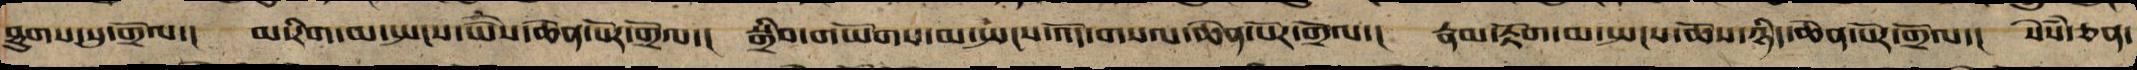ཐུགས་སུ་གྲོལ་། མ་རིག་མ་སྤངས་ཡེ་ཤེས་ཆེན་པོར་གྲོལ་། སྒྲིབ་གཡོགས་མ་སྤངས་འོད་གསལ་ཆེན་པོར་གྲོལ་། རྣམ་རྟོག་མ་སྤངས་ཆོས་ཉིད་ཆེན་པོར་གྲོལ་། སེཾས་ཅན་
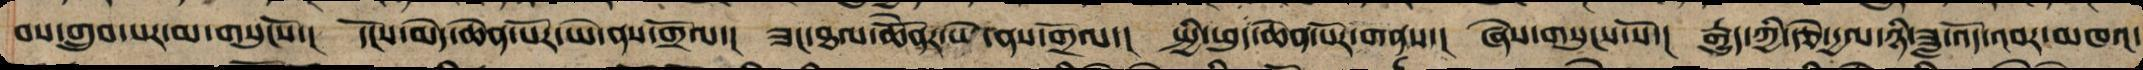བས་འགྲུབ་པར་མ་གསུངས་སོ་། དངོས་མེད་ཆེན་པོར་ཡེ་ནས་གྲོལ་། ཟང་ཐལ་ཆེནོར་ཡེ་ནས་གྲོལ་། སྤྱི་ཕུད་ཆེན་པོར་གནས་། ཞེས་གསུངས་སོ་། རྒྱུད་ཀྱི་རྩེ་རྒྱལ་ཉི་ཟླ་འོད་འབར་མཁའ་
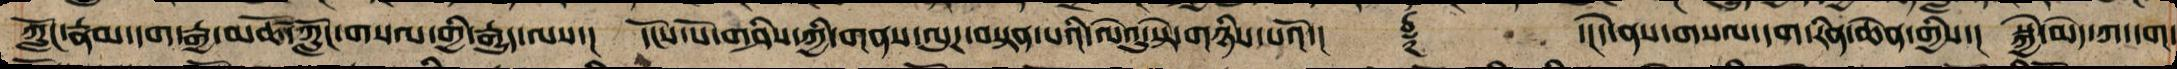ཀློང་རྣམ་དག་རྒྱ་མཚོ་ཀློང་གསལ་གྱི་རྒྱུད་ལས་། དངོས་པོ་གཤིས་ཀྱི་གནས་ལུཌ་བསྟན་པའི་ལེའུ་སྟེ་གཉིས་པའོ་།། ༈ ་།།དེ་ནས་གསལ་དག་རིན་ཆེན་གྱིས་། སྐྱེ་མེད་ཀ་དག་
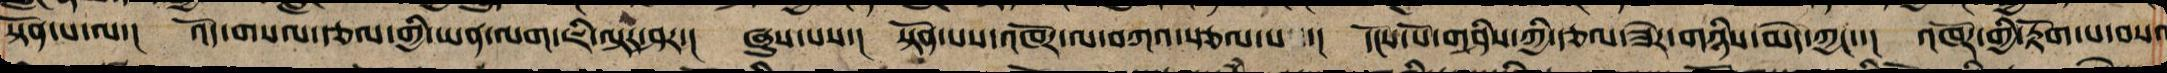སྟོན་པ་ལ་། འོད་གསལ་རྩལ་གྱི་ཡན་ལག་ཇི་ལྟར་ཤར་། ཞུས་པས་། སྟོན་པས་འཁོར་ལ་བཀའ་སྩལ་པ་། དངོས་པོ་གཤིས་ཀྱི་རྩལ་ཟེར་གཉིས་མེད་ཀྱང་་། འཁོར་གྱི་རྟོག་པ་བསལ་
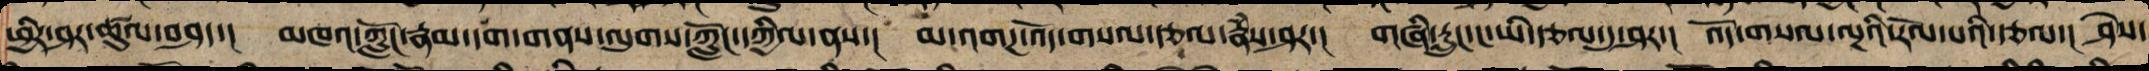ཕྱིར་ཤར་ཚུལ་བཤད་། མཁའ་ཀློང་རྣམ་དག་གནས་ལུགས་ཀློང་དཀྱིལ་ནས་། མ་འགཌ་འོད་གསལ་རྩལ་རྣཾས་ཤར་། གཞི་རླུང་ང་ཡི་རྩལ་དུ་ཤར་། འོད་གསལ་ལྔའི་རོལ་པའི་རྩལ་། ཤེས་
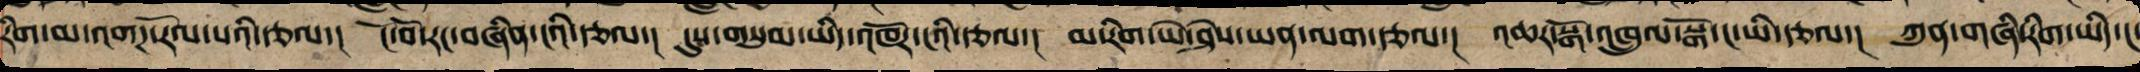རིག་མ་འགཌ་རོལ་པའི་རྩལ་། ངོ་བོ་རང་བཞིན་ང་ཡི་རྩལ་། དུས་གསུམ་ཡིད་འཁོར་ངའི་རྩལ་། མ་རིག་ཡེ་ཤེས་ཡན་ལག་རྩལ་། འཆར་སྒོ་འཁྲུལ་སྒོ་ང་ཡི་རྩལ་། ཀུན་གཞི་རིག་ཡིད་ང་
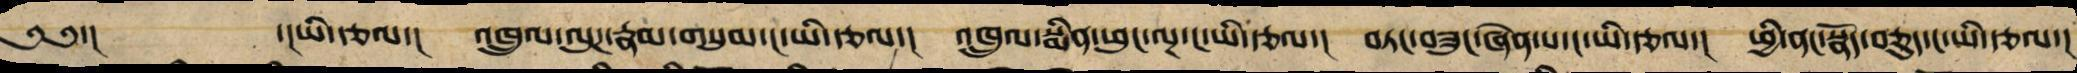༄༅་། ་།ཡི་རྩལ་། འཁྲུལ་ལུཌ་རྣམ་གསུམ་ང་ཡི་རྩལ་། འཁྲུལ་སྨིན་ཕུང་ལྔ་ང་ཡི་རྩལ་། བཏང་བཟུང་ཞེན་པ་ང་ཡི་རྩལ་། ཕྱི་ནང་སྣོད་བཅུད་ང་ཡི་རྩལ་།
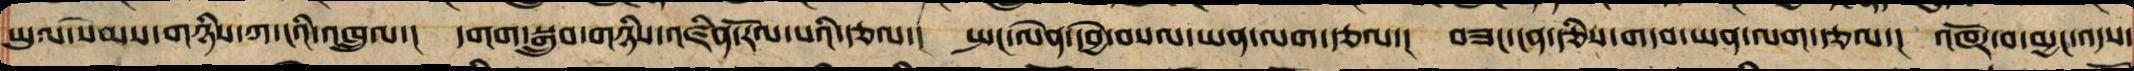ཡུལ་སེམས་གཉིས་ཀ་ངའི་འཁྲུལ་། དགག་བསྒྲུབ་གཉིས་འཛིན་རོལ་པའི་རྩལ་། སྤང་ལེན་དབྱེ་བསལ་ཡན་ལག་རྩལ་། བཟང་ངན་རྩིས་གདབ་ཡན་ལག་རྩལ་། འཁོར་བ་མྱང་འདས་
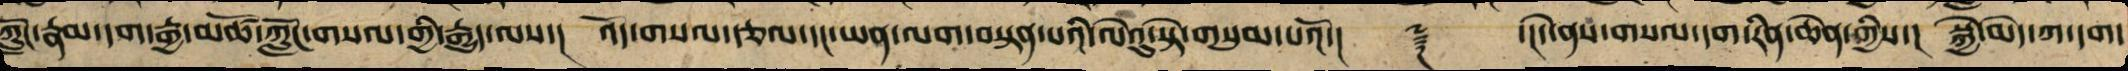ཀློང་རྣམ་དག་རྒྱ་མཚོ་ཀློང་གསལ་གྱི་རྒྱུད་ལས་། འོད་གསལ་རྩལ་དང་ཡན་ལག་བསྟན་པའི་ལེའུ་སྟེ་གསུམ་པའོ་།། ༈ ་།།དེ་ནས་གསལ་དག་རིན་ཆེན་གྱིས་། སྐྱེ་མེད་ཀ་དག་
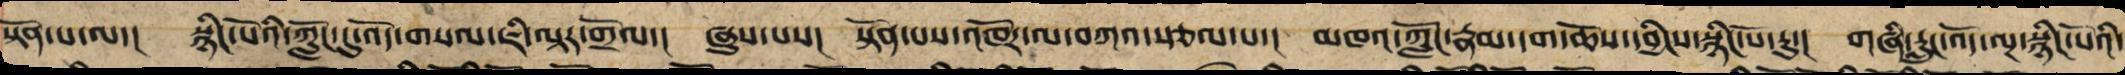སྟོན་པ་ལ་། སྙིང་པོའི་ཀློང་དུ་འོད་གསལ་ཇི་ལྟར་གྲོལ་། ཞུས་པས། སྟོན་པས་འཁོར་ལ་བཀའ་སྩལ་པ་། མཁའ་ཀློང་རྣམ་དག་ཆོས་དབྱིངས་སྙིང་པོ་རུ་། གཞི་རླུང་འོད་ལྔ་སྙིང་པོའི་
